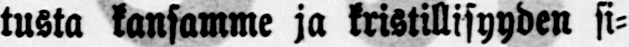tusta kansamme ja kristillisyyden si-
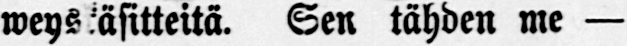weyskäsitteitä. Sen tähden me —
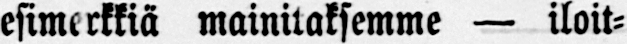esimerkkiä mainitaksemme — iloit-
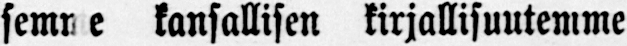semme kansallisen kirjallisuutemme
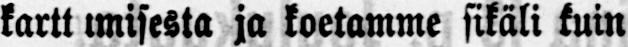karttumisesta ja koetamme sikäli kuin
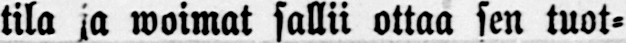tila ja woimat sallii ottaa sen tuot-
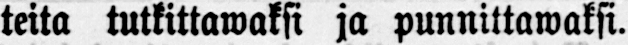teita tutkittawaksi ja punnittawaksi.
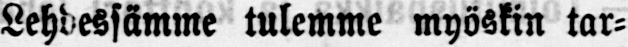Lehdessämme tulemme myöskin tar-
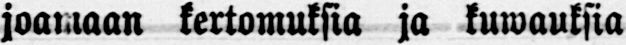joamaan kertomuksia ja kuwauksia
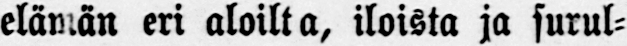elämän eri aloilta, iloista ja surul-
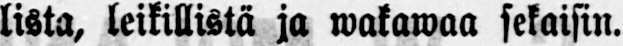lista, leikillistä ja wakawaa sekaisin.
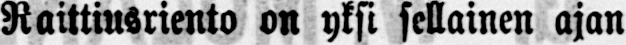Raittiusriento on yksi sellainen ajan
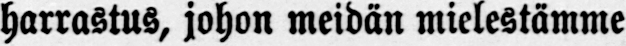harrastus, johon meidän mielestämme
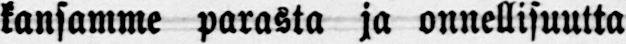kansamme parasta ja onnellisuutta
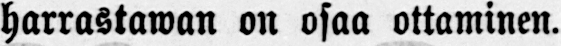harrastawan on osaa ottaminen.
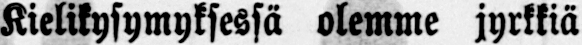Kielikysymyksessä olemme jyrkkiä
